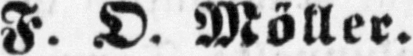F. D. Möller.
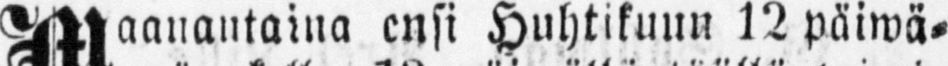Maanantaina ensi Huhtikuun l2 päiwä-
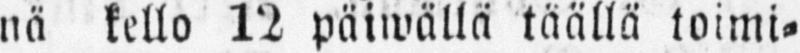nä kello 12 päiwällä täällä toimi-
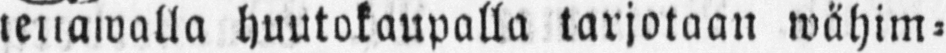tettawalla huutokaupalla tarjotaan wähim-
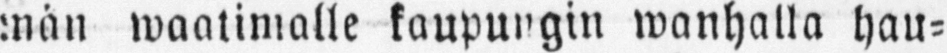män waatimalle kaupungin wanhalla hau-
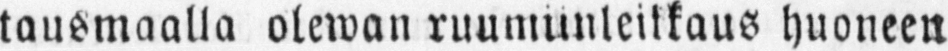tausmaalla olewan ruumiinleikkaus huoneen
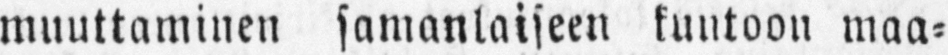muuttaminen samanlaiseen kuntoon maa-
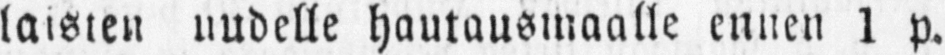laisten uudelle hautausmaalle ennen 1 p.
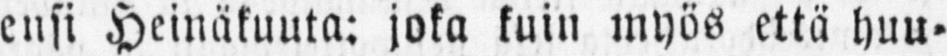ensi Heinäkuuta: joka kuin myös että huu-
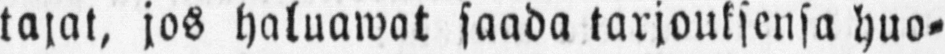tajat, jos haluawat saada tarjouksensa huo-
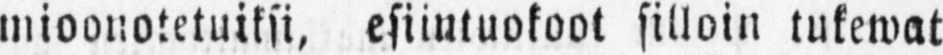mioonotetuiksi, esiintuokoot silloin tukewat
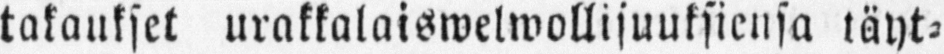takaukset urakkalaiswelwollisuuksiensa täyt-
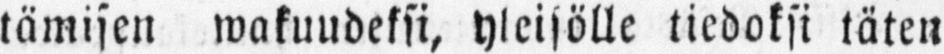tämisen wakuudeksi, yleisölle tiedoksi täten
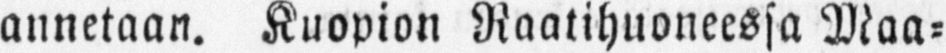annetaan. Kuopion Raatihuoneessa Maa-
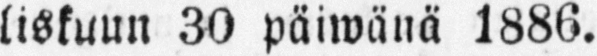liskuun 30 päiwänä 1886.
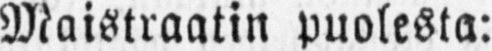Maistraatin puolesta:
